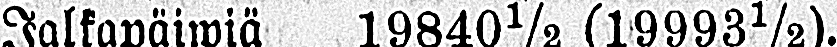Jalkapäiwiä 1984½ (19993½).
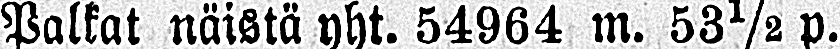Palkat näistä yht. 54964 m. 53½ p.
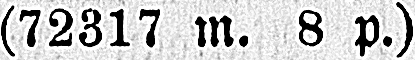(72317 M. 8 p.)
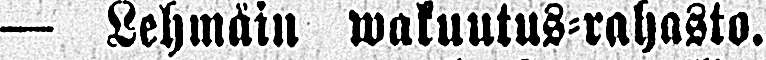— Lehmäin wakuutus-rahasto.
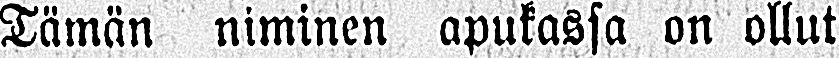Tämän niminen apukassa on ollut
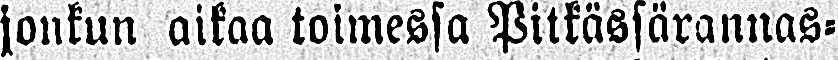jonkun aikaa toimessa Pitkässärannas-
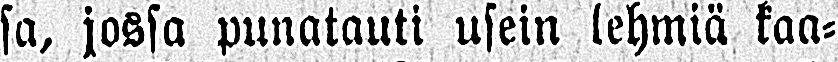sa, jossa punatauti usein lehmiä kaa-
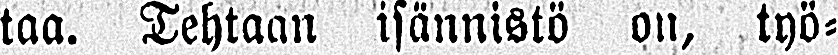taa. Tehtaan isännistä on, työ-
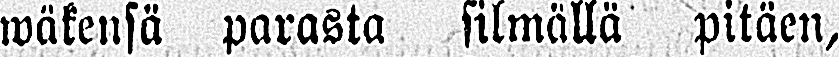wäkensä parasta silmällä pitäen,
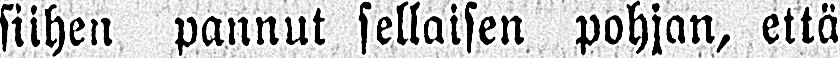siihen pannut sellaisen pohjan, että
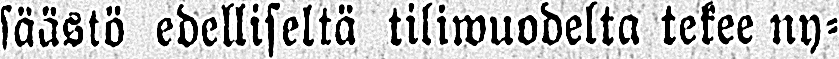säästö edelliseltä tiliwuodelta tekee ny-
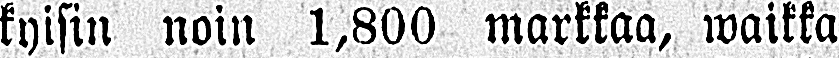kyisin noin 1,800 markkaa, waikka
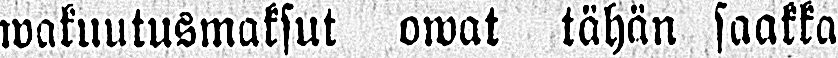wakuutusmaksut owat tähän saakka
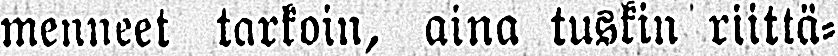menneet tarkoin, aina tuskin riittä-
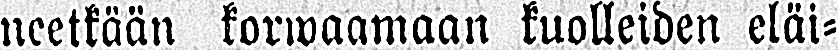neetkään korwaamaan kuolleiden eläi-
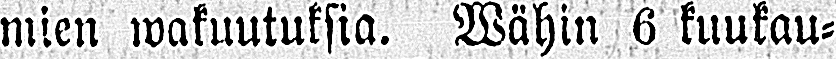mien wakuutuksia. Wähin 6 kuukau-
